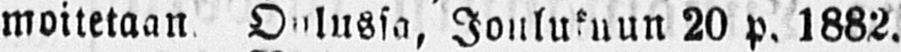moitetaan Oulussa, Joulukuun 20 p. 1882.
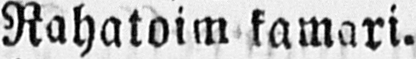Rahatoim kamari.
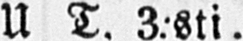U T. 3.sti.
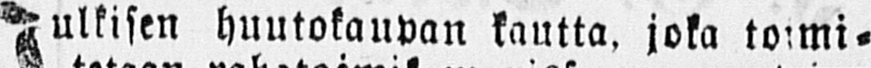julkisen huutokaupan kautta, joka toimi-
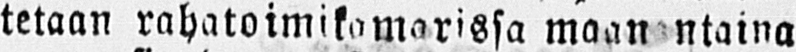tetaan rahatoimikomorissa maan ntaina
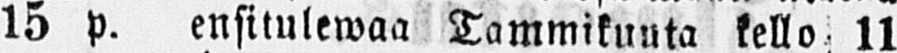15 P. ensitulewaa Tammikuuta kello 11
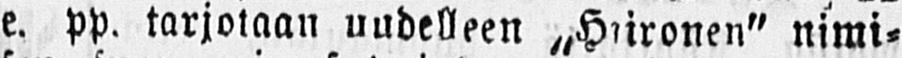e. pp. tarjotaan uudelleen „Hsironen" nimi-
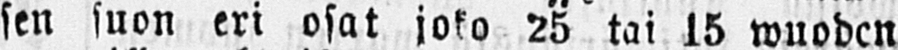sen suon eri osat joko 25 tai 15 wuoden
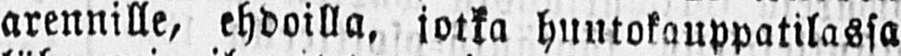arennille, ehdoilla, jotka huutokauppatilassa
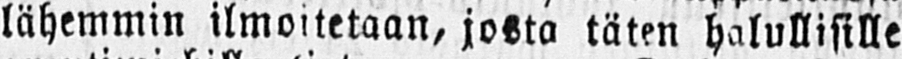lähemmin ilmoitetaan, josta täten halullisille
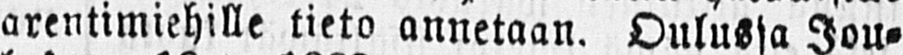arentimiehille tieto annetaan. Oulussa Jou-
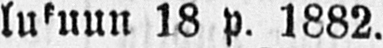lukuun 18 p. 1882.
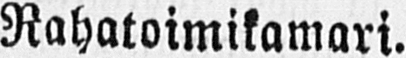Rahatoimikamari.
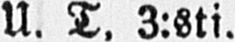U. T. 3:sti.
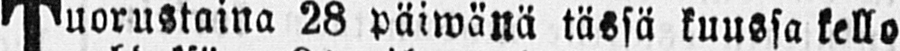Tuorustaina 28 päiwänä tässä kuussa kello
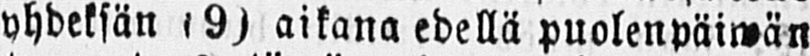yhdeksän (9) aikana edellä puolenpäiwän
